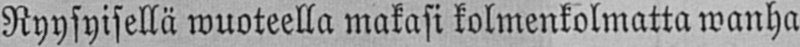Ryysyisellä wuoteella makasi kolmenkolmatta wanha
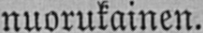nuorukainen.
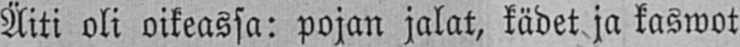Äiti oli oikeassa: pojan jalat, kädet ja kaswot
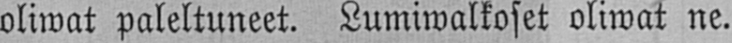oliwat paleltuneet. Lumiwalkoset oliwat ne.
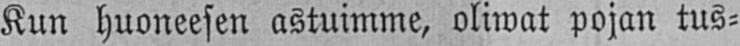Kun huoneesen astuimme, oliwat pojan tus-
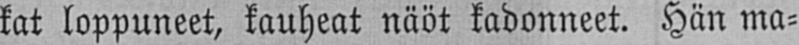kat loppuneet, kauheat näöt kadonneet. Hän ma-
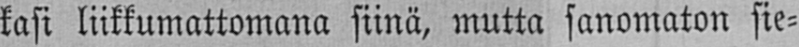kasi liikkumattomana siinä, mutta sanomaton sie-
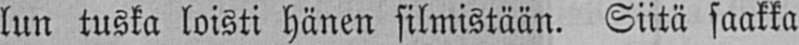lun tuska loisti hänen silmistään. Siitä saakka
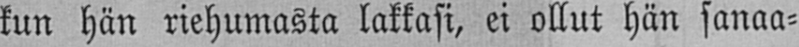kun hän riehumasta lakkasi, ei ollut hän sanaa-
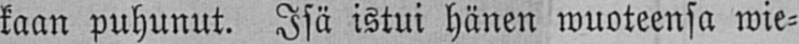kaan puhunut. Isä istui hänen wuoteensa wie-
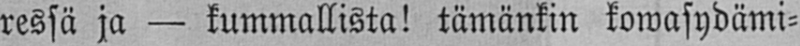ressä ja — kummallista! tämänkin kowasydämi-
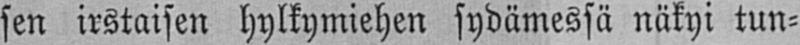sen irstaisen hylkymiehen sydämessä näkyi tun-
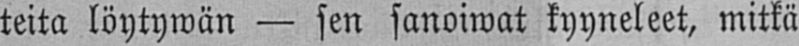teita löytywän — sen sanoiwat kyyneleet, mitkä
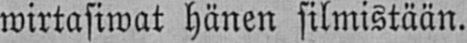wirtasiwat hänen silmistään.
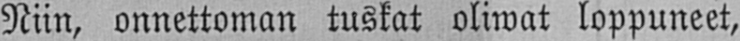Niin, onnettoman tuskat oliwat loppuneet,
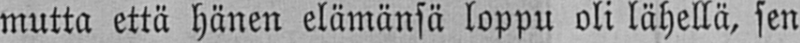mutta että hänen elämänsä loppu oli lähellä, sen
